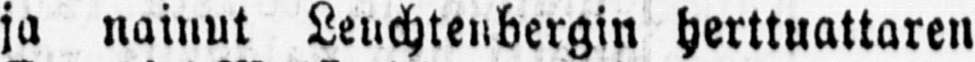ja nainut Leuchtenbergin herttuattaren
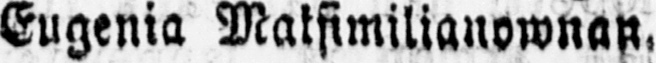Eugenia Maksimilianownan.
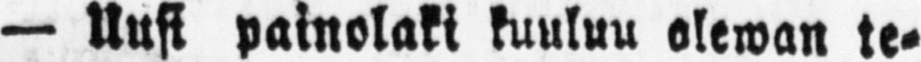— Uusi painolaki kuuluu olewan te-
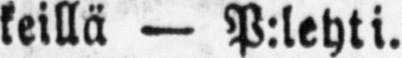keillä — P:lehti.
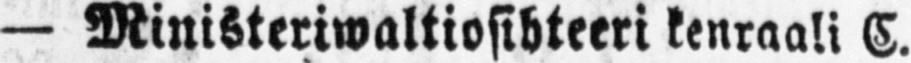— Ministeriwaltiosihteeri kenraali C.
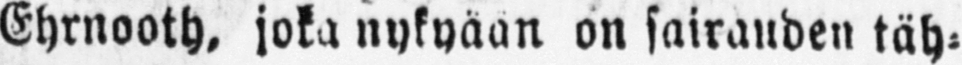Ehrnooth. joka nykyään on sairauden täh-
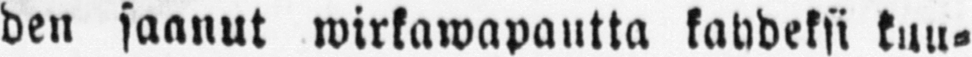den saanut wirkawapautta kahdeksi kuu-
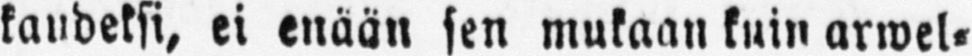kaudeksi, ei enään sen mukaan kuin arwel-
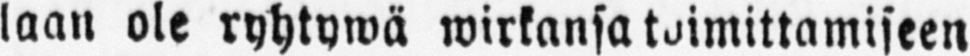laan ole ryhtywä wirkansa toimittamiseen
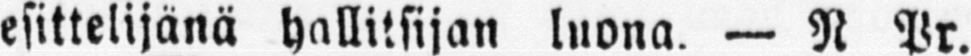esittelijänä hallitsijan luona. — N Vr.
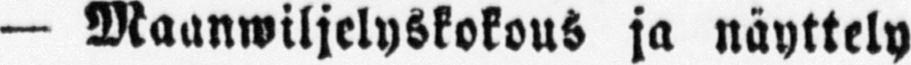— Maanwiljelyskokous ja näyttely
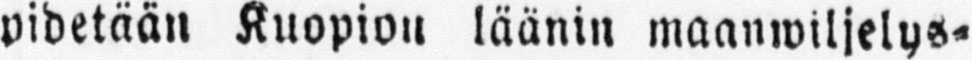pidetään Kuopion läänin maanwiljelys-
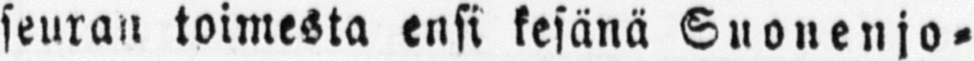seuran toimesta ensi kesänä Suonenjo-
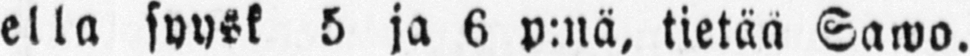ella syysk 5 ja 6 p:nä, tietää Sawa.
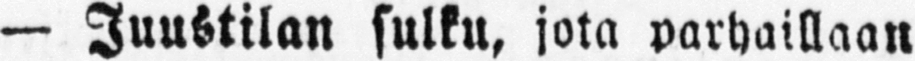— Juustilan sulku, jota parhaillaan
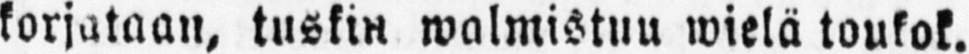korjataan, tuskin walmistuu wielä toukok.
